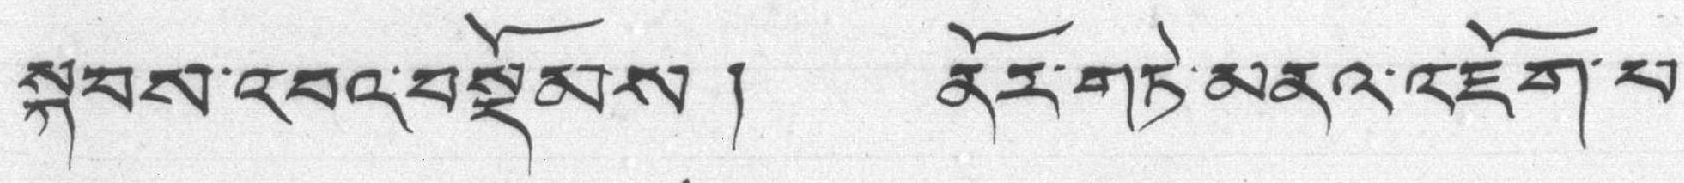སྐབས་འབའ་བསྡོམས། ནོར་གཏེ་མནའ་འཇོག་པ་
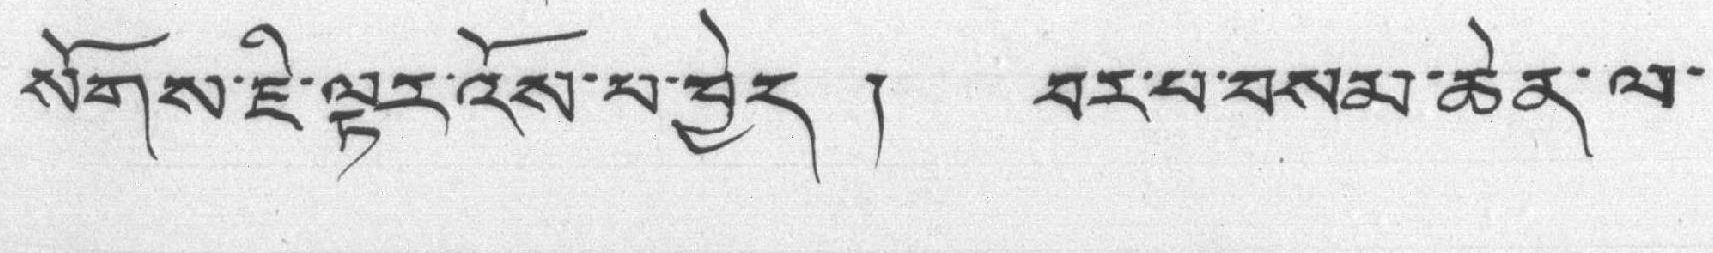སོགས་ཇི་ལྟར་འོས་པ་བྱེད ། བར་པ་བསམ་ཆེན་ལ་
